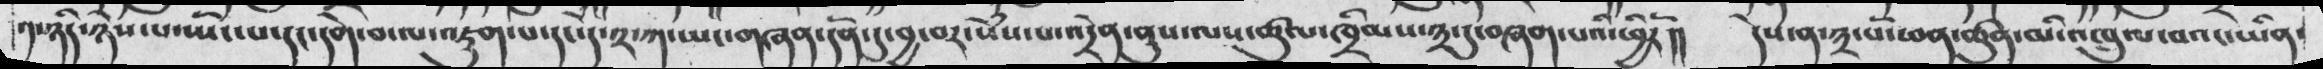༡་ཉིད་ཉེས་པ་ཡོང་པ་དང་དགེ་བ་ལ་འཇུག་པ་དང་དེ་༢་ཀ་ཡང་གཞན་དོན་དུ་བྱ་བར་སེསྃ་པ་འདྲེན་ནུས་ལས་ཚུལ་ཁྲིམས་༣་དུ་བཞག་པའི་ཕྱིརོ།།    དེས་ན་༣་པོ་ཕན་ཚུན་མི་འཁྲུལ་བའང་ཡིན་
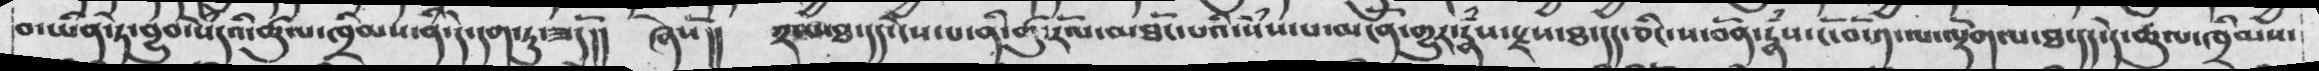བ་ཡིན་ཏེ་བྱུབ་སེཾདའི་ཚུལ་ཁྲིམས་ནི་དེ་དག་ཏུ་ཟདོ།།   ཞེསོ།།    ༢་པ་ཐ་དད་ངེས་པ་ནི་ཚུ་རོལ་མཐོང་པའི་སེཾས་པ་མངོན་གྱུར་རྣཾས་སྫས་ཐ་དད་ཅིང་ས་བོན་རྣཾས་ངོ་བོ་༡་ལ་ལྡོག་ཐ་དད་དེ་ཚུལ་ཁྲིམས་
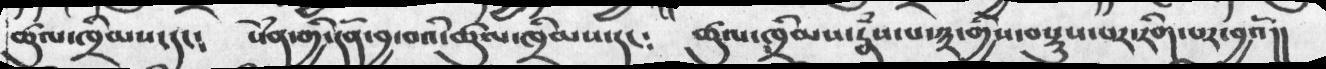ཚུལ་ཁྲིམས་དང༴ སེཾན་གྱི་དོན་བྱ་བའི་ཚུལ་ཁྲིམས་དང༴ ཚུལ་ཁྲིམས་རྣཾས་པ་༣་གྱིས་བསྡུས་པར་རིག་པར་བྱའོ།།
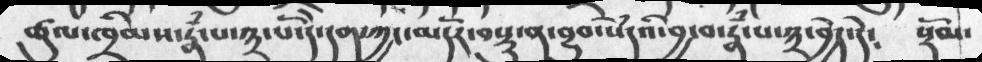ཚུལ་ཁྲིམས་རྣཾ་པ་༣་པོ་དེ་དག་ཀྱང་མདོར་བསྡུ་ན་བྱུབ་སེཾདའི་བྱ་བ་རྣཾ་པ་༣་བྱེད་དེ༴ སྡོམ་
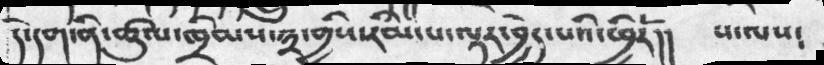དེ་དག་ནི་ཚུལ་ཁྲིམས་༣་གྱིས་རིམ་པ་ལྟར་བྱེད་པའི་ཕྱིརོ།། པ་ལས༴
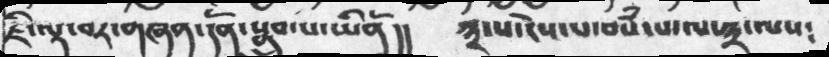ཇི་ལྟར་བར་གཞན་དོན་སྒྲུབ་པ་ཡིནོ།། ༣་པ་ངེས་པ་བསཾ་པ་ལ་༣་ལས༴
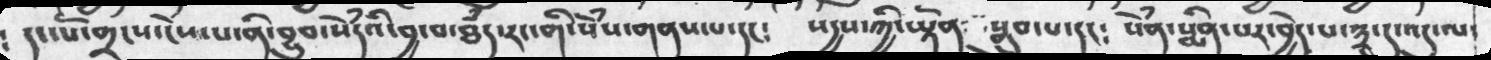དང་པོ་གྲངས་ངེས་པ་ནི་བྱུབ་སེཾདའི་བྱ་བ་ཐཾད་རང་གི་སེྃས་གནས་པ་དང༴    སདྱས་ཀྱི་ཡྟོན་སྒྲུབ་པ་དང༴   སེཾན་སྨིན་པར་བྱེད་པ་༣་དུ་འདུ་ལ་
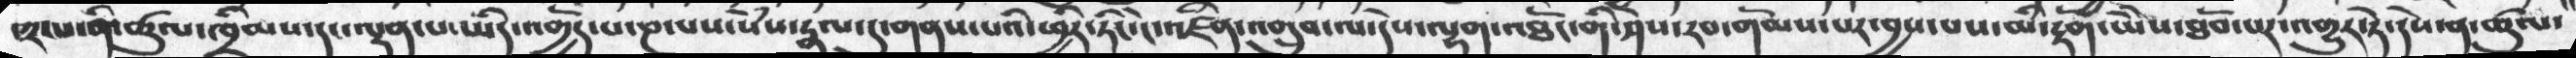་༢་པ་ནི་ཚུལ་ཁྲིམས་དང་ལྡན་པ་ཡིད་འགྱོད་པ་ཎ་པས་སེཾས་རྣལ་དུ་ཏིང་ངེ་འཛིན་འགྲུབ་ལ་དེས་ལྷག་འཐོང་གི་ཤེས་རབ་གོམས་པར་བྱས་པས་མི་རྟོག་ཡཻས་ཐོབ་པར་འགྱུར་ཏེ་དེས་ན་ཚུལ་
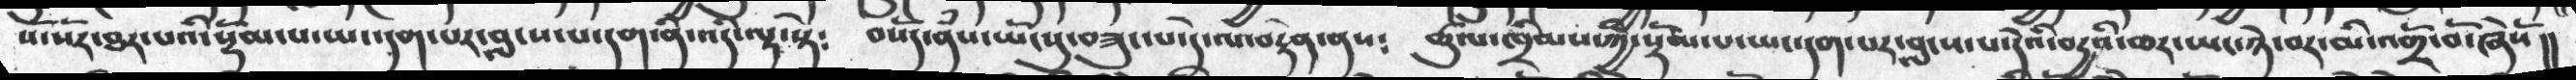སོ་སོར་ཐར་པའི་སྡོམ་པ་ཡང་དག་པར་བླངས་པ་དག་ནི་འདི་ལྟ་སྟེ༴ བསོད་ནཾས་ཡོངསུ་བཟུང་པ་དེ་ལ་བརྟེན་ནས༴ ཚུལ་ཁྲིམས་ཀྱི་སྡོམ་པ་ཡང་དག་པར་བླངས་པ་དེའི་བདྱའི་ཆར་ཡང་ཉེ་བར་མི་འགྲོ་བོ་ཞེསོ།།
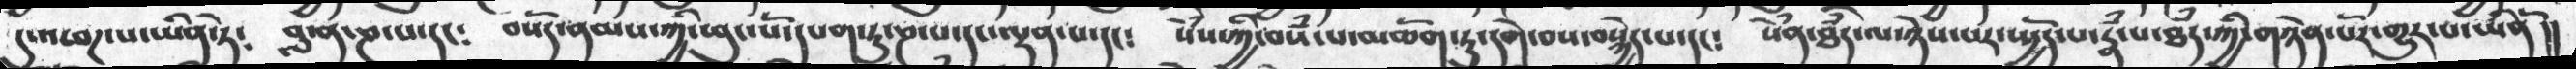དུ་འཕགས་པ་ཡིན་ཏེ༴ བླ་ན་ཎ་པ་དང༴ བསོད་ནམས་ཀྱི་ཕུང་པོ་དཔག་ཏུ་ཎ་པ་དང་ལྡན་པ་དང༴ སེཾས་ཀྱི་བསཾ་པ་མཆོག་ཏུ་དགེ་བས་བསྐྱེད་པ་དང༴ སེཾན་ཐཾད་ལ་ཉེས་པར་སྤྱོད་པ་རྣཾ་པ་ཐཾད་ཀྱི་གཉེན་པོར་གྱུར་པ་ཡིནོ།།
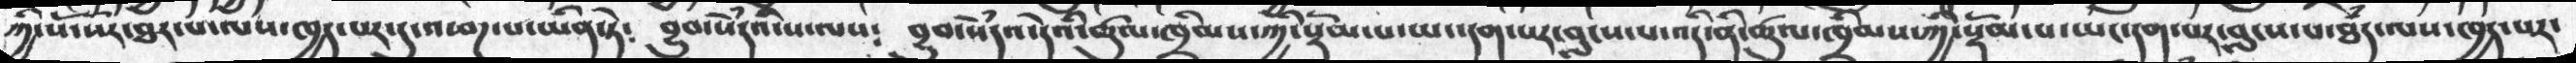ཀྱི་སོ་སོར་ཐར་པ་ལས་ཁྱད་པར་དུ་འཕཌ་པ་ཡིན་ཏེ༴ བྱུབ་སེཾདའི་ས་ལས༴ བྱུབ་སེཾདའ་དེའི་ཚུལ་ཁྲིམས་ཀྱི་སྡོམ་པ་ཡང་དག་པར་བླངས་པ་འདི་ནི་ཚུལ་ཁྲིམས་ཀྱི་སྡོམ་པ་ཡང་དག་པར་བླངས་པ་ཐཾད་ལས་ཁྱད་པར་
